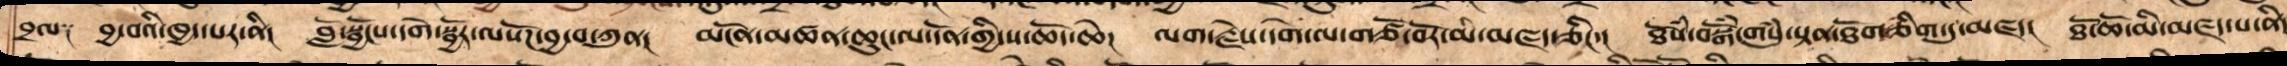བྲལ༑  བྱ་བའི་ཁྱད་པར་ནི།   བློ་སྦྱོངས་དགེ་སྦྱོར་ལསོཌ་བྱ་བ་ཀུན།   མངོན་མཚན་ཆུང་ལ་དོན་གྱི་ས་ཆོད་ཆེ།   ལག་རྗེས་དགེ་ལ་གཙོ་བོར་མི་མཛད་ཅིང་།  ཐོསཾ་བསྒོཾ་གསུཾ་སྟན་ཐོགཅིག་དུ་མཛད།  ཐོ་ཆོ་མི་མཛད་པ་ནི
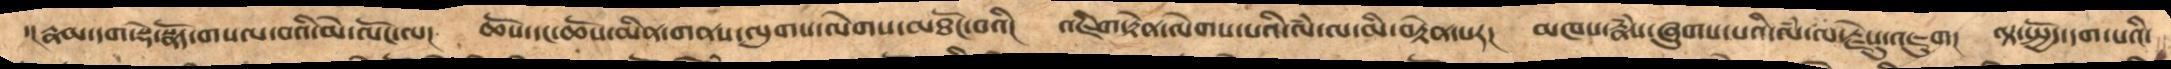་།  རྣམ་དག་སྡེ་སྣོད་གསལ་བའི་མེ་ལོང་ལ།  ཆོས་དང་ཆོས་མིན་གནས་ལུགས་ལེགས་མཐོང་བའི།  འཇིག་རྟེན་ལེགས་པའི་ལཾ་ལ་མི་བརྟེན་པར།  མཁས་རྣཾས་ཞུགས་པའི་ལཾ་ལ་རྗེསུ་འཇུག།  ལྟ་སྤྱོད་དག་པའི་
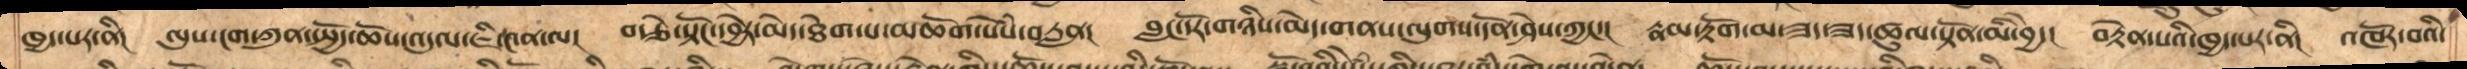ཁྱད་པར་ནི།  ལུས་ངག་ཀུན་སྤྱོད་ཆོས་འདུལ་ཇི་༤ན་ལ།  བརྩེ་སྟོང་དབྱེར་མེད་ཐེག་པ་མཆོག་སེྃས་བརླན།  བླང་དོར་གཉིས་མེད་གནས་ལུགས་དོན་ཤེས་ཀྱང་།   རྣམ་རྟོག་མ་ཟད་ཟད་ཚུལ་སྟོན་མི་བྱེད།  བརྟེན་པའི་ཁྱད་པར་ནི།  འཁོར་བའི་
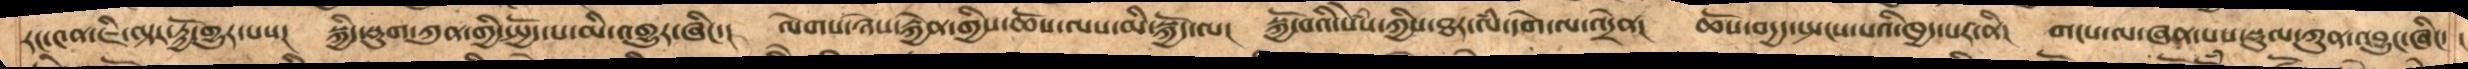རང་༤ན་ཇི་ལྟར་རྟྱོ་གྱུར་པས།  སྐྱིད་བུག་ཀུན་གྱི་སྤྱོད་པ་མི་འགྱུར་ཞིང་།  ལེགས་ཉེས་རྐྱེན་གྱིས་ཆོས་ལས་མི་སྐྱོད་ལ།   སྐྱོ་བའི་སེཾས་ཀྱིས་ཐར་ལྃ་དགེ་ལ་འདྲེན།    ཆོས་བདྱད་སྤངས་པའི་ཁྱད་པར་ནི། གང་ལ་ཞན་པས་སྡུལ་ཀུན་འབྱུང་ཞིང་།
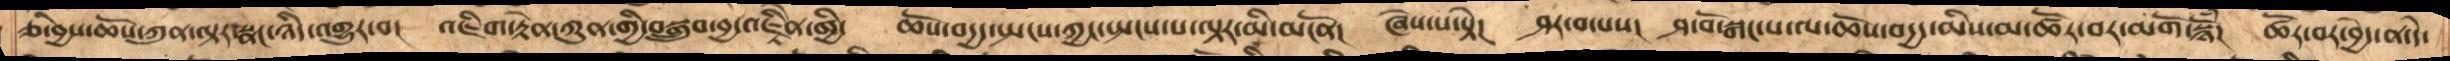ཅི་བྱས་ཆོས་ཀུན་ལྟར་སྣང་ཉིད་འགྱུར་བ།  འཇིག་རྟེན་ཀུན་གྱི་བསྒྲུབ་བྱ་འཇྟིེན་གྱི།  ཆོས་བདྱད་སྤངས་ཀྱང་སྤངས་པ་ལྟར་མི་མངོན།  ཞེས་པ་སྟེ། ཤར་བ་པས། ཤ་བོ་སྒང་པ་ལ་ཆོས་བདྱད་མིས་མ་ཚོར་བར་མགོ་སྙོྃ། ཚོར་བར་བྱེད་ན་དེ་
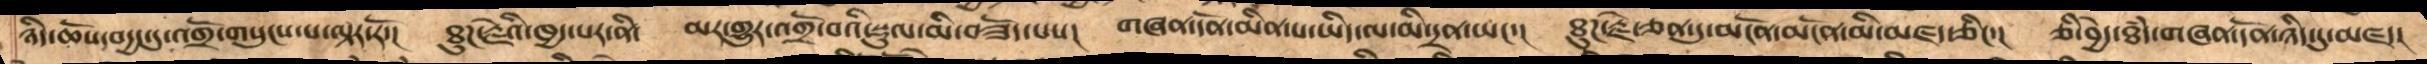ཉིད་ཆོས་བདྱད་དུ་འགྲོ་གསུང་པ་ལྟར་རོ།  ཐུཌ་རྗེའི་ཁྱད་པར་ནི། མར་གྱུར་འགྲོ་བའི་སྡུལ་མ་བཟོད་པས།  གཞན་དོན་མིན་པ་ཡིད་ལ་མི་དྲན་ཡང་།  ཐུཌ་རྗེ་ཅན་དུ་མངོན་མངོན་མི་མཛད་ཅིང་། ཅི་བྱེད་ཐྃད་གཞན་དོན་ཉིད་དུ་མཛད།
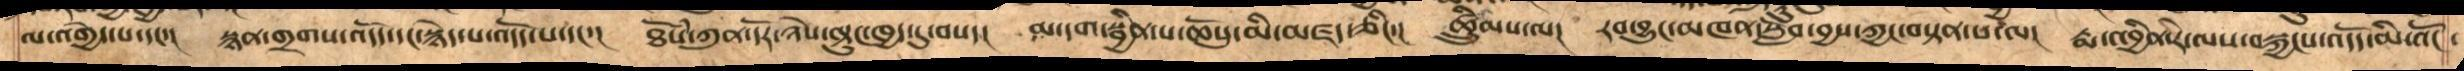ལ་འགྱེད་པ་དང་།  སྙན་གྲགས་འདོད་དང་རྙེད་པ་འདོད་པ་དང་།  ཐོསཾ་ཀུན་དོར་ཉེས་ལྟུང་ཁྱད་དུ་བསད།   མ་དག་སྦྱིན་པ་ཆོསུ་མི་མཛད་ཅིང་།  ཚྲིུམས་ལ།  རབ་བྱུང་མཁན་སློབ་བྱས་ཀྱང་བསྟན་པ་ལ།  རྨ་འབྱིན་རེ་ལས་བསྐྱངས་འདོད་མི་འོང་
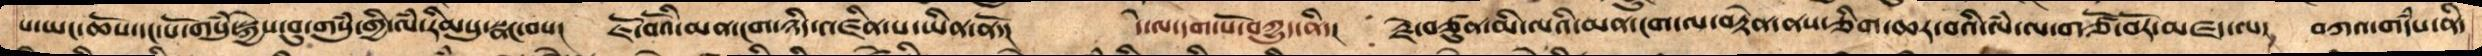པ་ཡང་ཆོས་དང་པོ་གསུཾ་སྐྱེས་བུ་གསུཾ་གྱི་ལཾ་རིམསུ་སྣང་བས།   ཇོ་བོའི་མན་ངག་ཉིད་འཛིན་པ་ཡིན་ནོ་།   དེ་ལ་དག་པོའི་བཀྱུད་ནི་།   རྗེ་བཙུན་མི་ལའི་མན་ངག་ལ་བརྟེན་ནས་ཅིག་ཆར་བའི་ལཾ་ལ་གཙོ་བོརམཛད་ལ།  བཀའ་གདཾས་ནི་
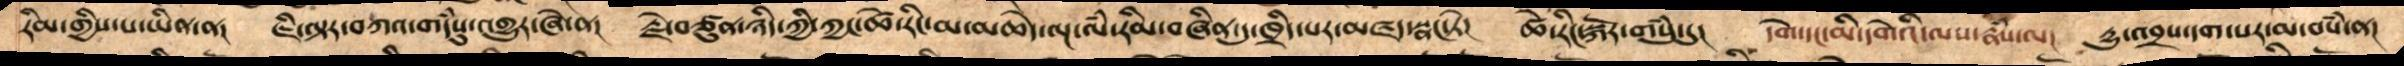རིམ་གྱིས་པ་ཡིན་ན།  ཇི་ལྟརབཀའ་གདཾསུ་འགྱུར་ཞེ་ན།   རྗེ་བཙུན་ཉིད་ཀྱི་ཀྱང་ཚེ་རིང་མ་མཆེད་ལྔ་ལཾ་རིམ་བཞིན་དུ་ཁྲིད་པར་མཛད་སྣང་ཏེ།  ཚེ་རིང་སྐོར་གསུཾ་དུ།  དགེ་དང་མི་དགེའི་ལས་རྣཾས་ལ། རྒྱུ་འབྲས་དག་པར་མ་བསཾ་ན།
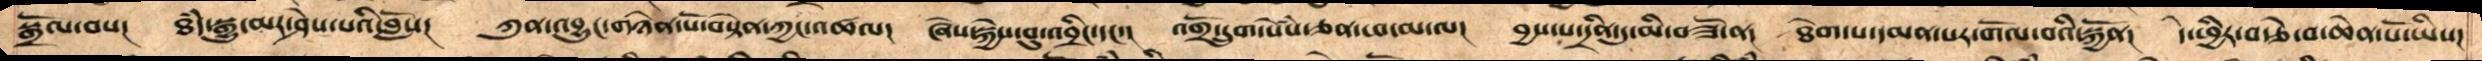སྒྲོལ་བས།    ཐཾད་སྒྱུ་མར་ཤེས་པའི་བློས།     ཀུན་འབྱུང་གཉེན་པོ་བསྟེན་ཀྱང་འཚལ།     ཞེས་སྐྱེས་བུ་འབྲིང་དང་།    འགྲོ་དྲུག་སེསཾ་ཅན་ཕ་མ་ལ།    བྱས་པ་དྲིན་དུ་མི་བཟོ་ན།     ཐེག་པ་དམན་པར་གོལ་བའི་སྐྱོན།    དེ་ཕྱིར་བརྩེ་བ་ཆེན་པོ་ཡིས།
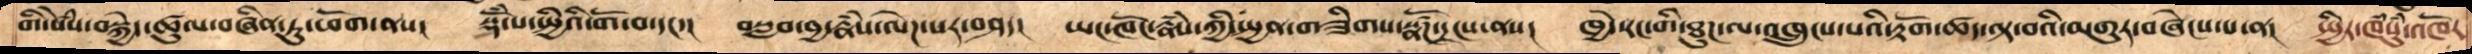གི་སེསཾ་བསྐྱེད་ཚུལ་བཞིན་ཏུ་ཕོག་ནས།    སྡོཾ་པ་སྤྱིའི་གོ་བ་དང་།    བསླབ་བྱ་རྣཾས་ལེཌ་པར་བཤད།    ཡང་ཁོང་རྣཾས་ཀྱི་སྤྱན་གཟིགས་སྣཚོཌ་དྲངས་ནས།    ཁྱེད་རང་གི་ཐུཌ་ལ་འཁྲུངས་པའི་རྟོག་ཚད་ལྟ་བའི་མགུར་བཞེངས་པ་ན།   སྤྱིར་ཁཾསུཾ་འཁོར
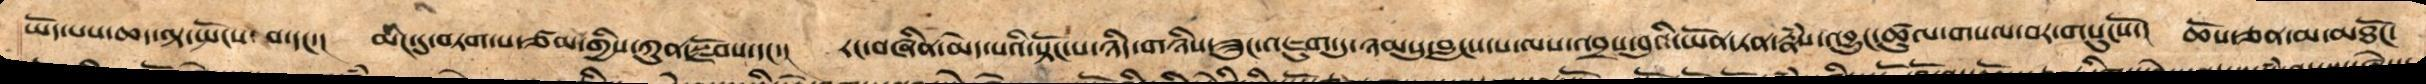ཡོད་པས་ཆད་ལྟ་སྤོངས་བ་དང་།   མིང་དུ་བཏག་པ་ཙམ་གྱིས་ཀུན་སྫོབས་དང་།   རང་བཞིན་མེད་པའི་སྟོང་པ་ཉིད་གཉིས་ཟུང་འཇུག་ཏུ་ཉམསུ་བླངས་པ་ལས་འབྲས་བུའི་ཡོན་ཏན་རྣཾས་འབྱུང་ཚུལ་གསལ་བར་གསུངསོ་།   ཆོས་ཅན་མ་མཐོང་
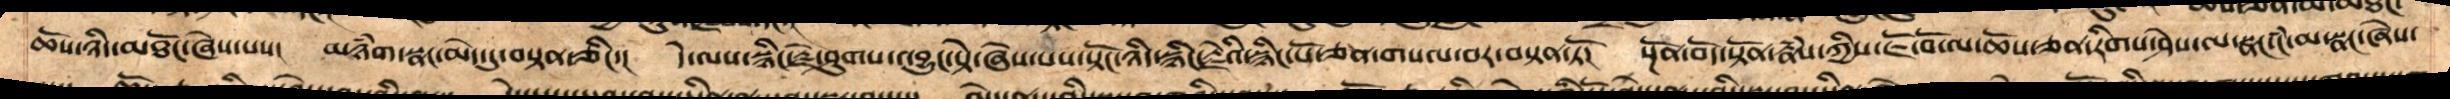ཆོས་ཉིད་མཐོང་ཞེས་པས།   མཉཾག་སྣང་མེད་དུ་བསྟན་ཅིང་།    དེ་ལས་སྙིང་རྗེ་ཤུགས་འབྱུང་སྟེ་ཞེས་པས་སྟོང་ཉིད་སྙིང་རྗེའི་སྙིང་པོ་ཅན་གསལ་བར་བསྟན་ཏོ།    སྔོན་བོད་སྟོན་རྣཾས་ཀྱིས་ཇོ་བོ་ལ་ཆོས་ཅན་རིགས་ཤེས་ལ་སྣང་ངཾ་མ་སྣང་ཞེས་
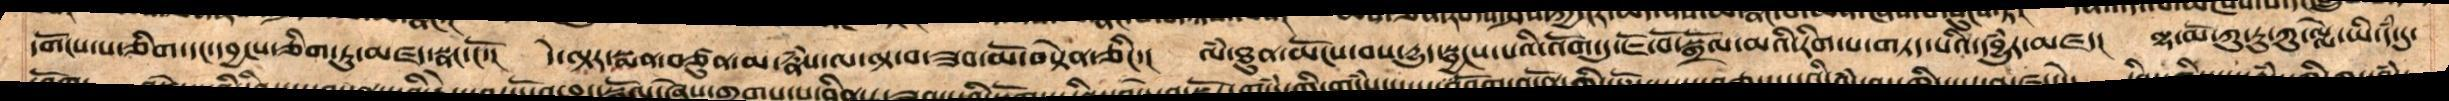དགོངས་པ་གཅིག་དང་དབྱངས་གཅིག་ཏུ་མཛད་སྣང་ངོ་། དེ་ལྟར་སྨན་བཙུན་མ་རྣཾས་ལ་ལྟ་བ་ཟབ་མོ་བསྟེན་ཅིང་། ལཾ་ཐུན་མོངས་བས་རྒྱུད་སྦྱངས་པའི་འོག་ཏུ་ཇོ་བོ་སྒྲོལ་མའི་རིག་པ་གཏད་པའི་དབྱུཾར་མཛད། ལྷ་མོ་ཀུ་རུ་ཀུལླེ་ཡི་དཾ་དུ་
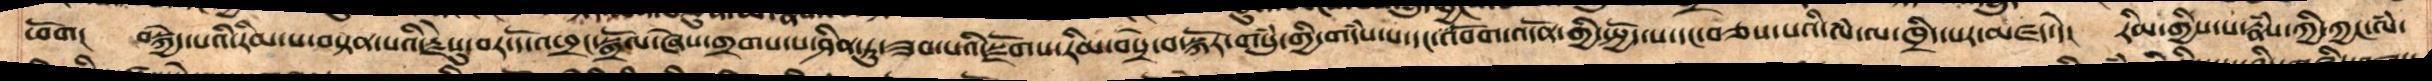ཕོག། བསྐྱེད་པའི་རིམ་པ་བསྟན་པའི་རྗེསུ་བར་དོ་འཕྲང་སྒྲོལ་ཞེས་གྲགས་པ་ཤིན་ཏུ་ཟབ་པའི་སྫོགས་རིམ་བསྲེ་བ་སྐོར་གསུཾ་གྱི་གདཾས་པ་དང་འབོག་འདོན་གྱི་སྤྱོད་པ་དང་བཅས་པའི་ལཾ་ལ་ཁྲིད་པར་མཛད་དེ།  རིམ་གྱིས་པ་རྣཾས་ཀྱི་ཀྱང་ལཾ་
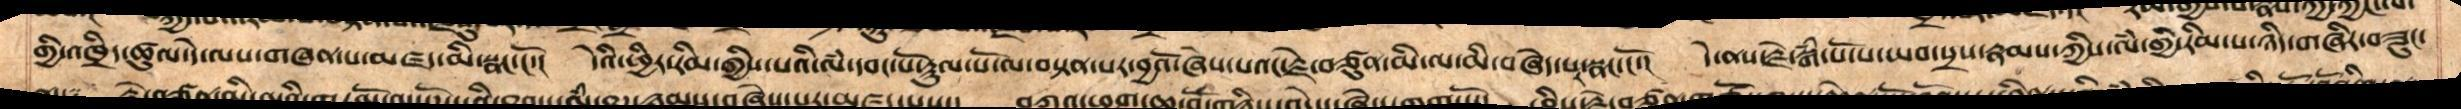གྱི་འཁྲིད་ཚུལ་དེ་ལས་གཞན་པ་མཛད་མི་སྣང་ངོ་།  དེའི་ཕྱིར་རིམ་གྱིས་པའི་ལཾ་དབང་པོ་རྟུལ་པོ་ལ་བསྟན་པར་བྱའོ་ཞེས་པའང་རྗེ་བཙུན་མི་ལ་མི་བཞེད་པར་སྣང་ངོ་།  དེས་ན་རྗེ་སྒཾ་པོ་པ་ཡབ་སྲས་རྣམས་ཀྱིས་ལཾ་གྱི་རིམ་པ་ཉིད་གཞིར་བཟུང་
